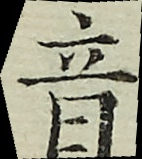音
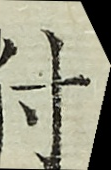附
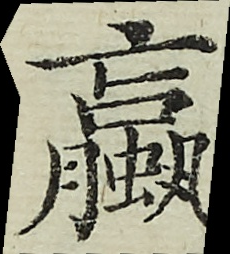蠃
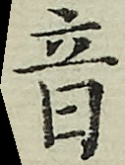音
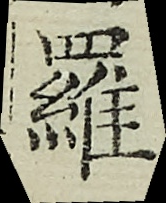羅
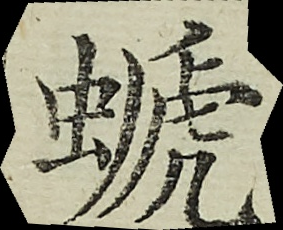螔
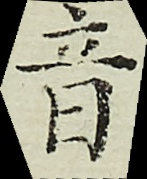音
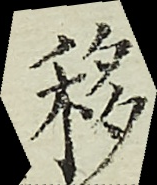移
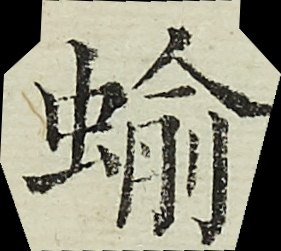蝓
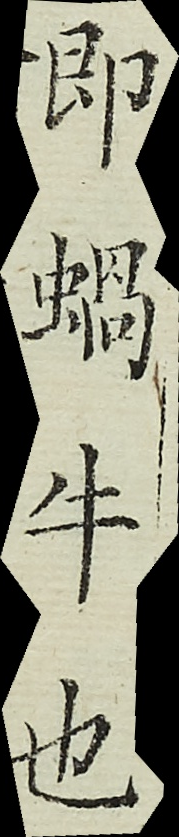即蝸牛也
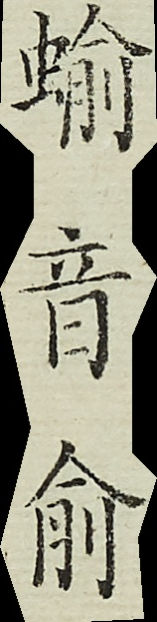蝓音俞
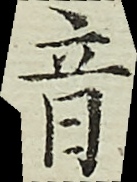音
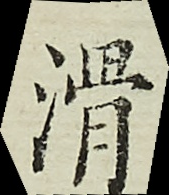滑
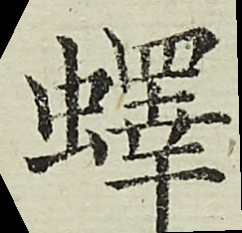蠌
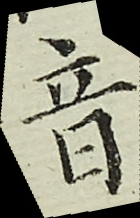音
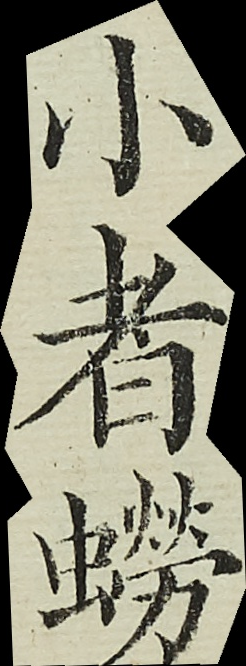小者蟧
